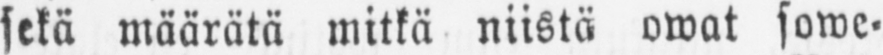sekä määrätä mitkä niistä owat sowe-
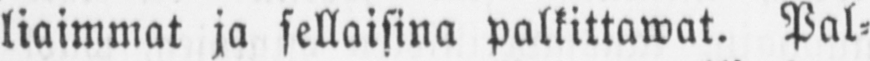liaimmat ja sellaisina palkittawat. Pal-
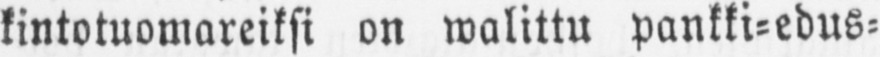kintotuomareiksi on walittu pankki-edus-
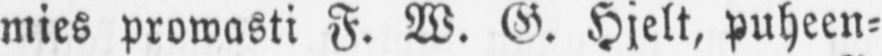mies prowasti F. W. G. Hjelt, puheen-
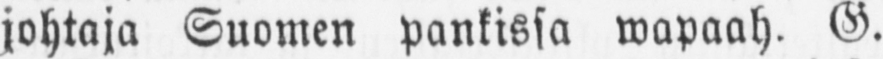johtaja Suomen pankissa wapaah. G.
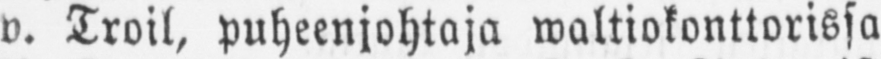v. Troil, puheenjohtaja waltiokonttorissa
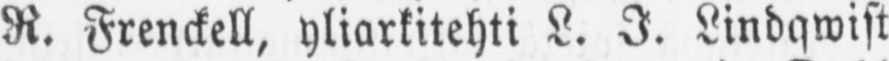R. Frenckell, yliarkitehti L. I. Lindqwist
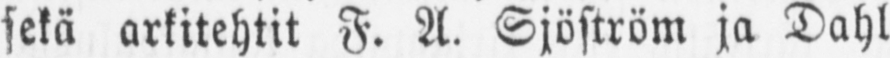sekä arkitehtit F. A. Sjöström ja Dahl
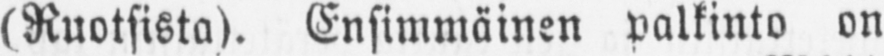(Ruotsista). Ensimmäinen palkinto on
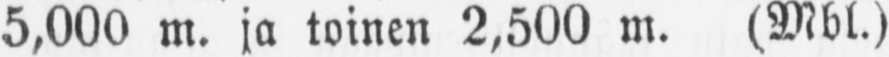5,000 m. ja toinen 2,500 m. (Mbl.)
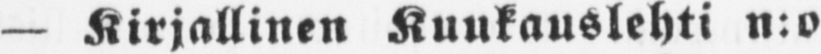— Kirjallinen Kuukauslehti n:o
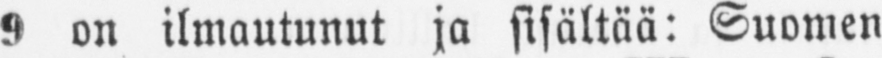9 on ilmautunut ja sisältää: Suomen
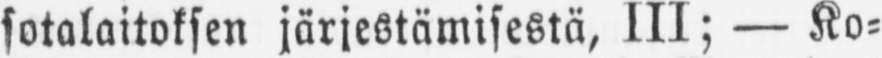sotalaitoksen järjestämisestä, III; — Ko-
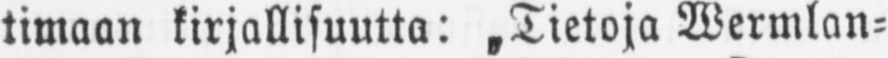timaan kirjallisuutta: „Tietoja Wermlan-
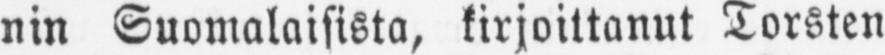nin Suomalaisista, kirjoittanut Torsten
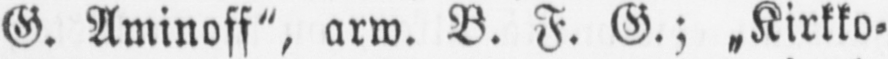G. Aminoff", arw. B. F. G.; „Kirkko-
